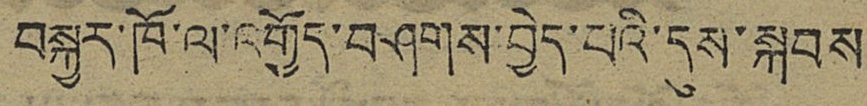བསྐྱར་ཁོ་ལ་འགྱོད་བཤགས་བྱེད་པའི་དུས་སྐབས་
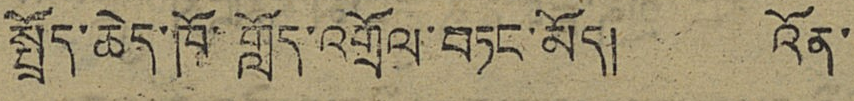སྤྲོད་ཆེད་ཁོ་གློད་འགྲོལ་བཏང་མོད། འོན་
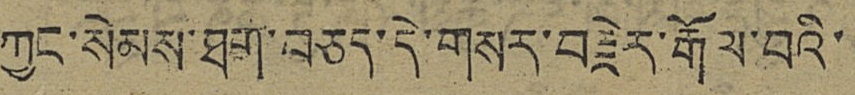ཀྱང་སེམས་ཐག་བཅད་དེ་གསར་བརྗེར་རྒོལ་བའི་
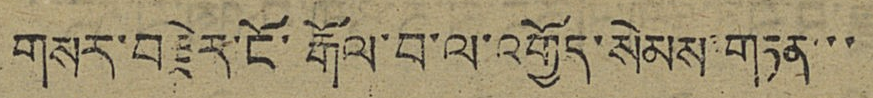གསར་བརྗེར་ངོ་རྒོལ་བ་ལ་འགྱོད་སེམས་གཏན་་་
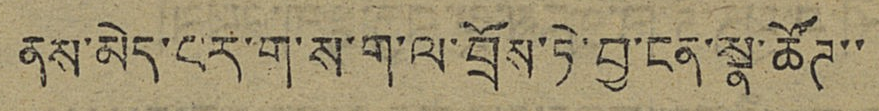ནས་མེད་པར་ག་ས་ག་ལ་བྲོས་ཏེ་བྱ་ངན་སྣ་ཚོཊ་་
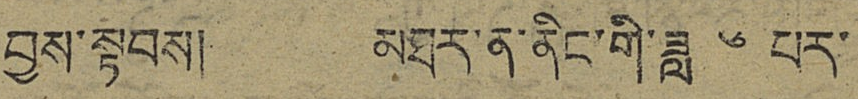བྱས་སྟབས། མཐར་ན་ནིང་གི་ཟླ ༦ པར་
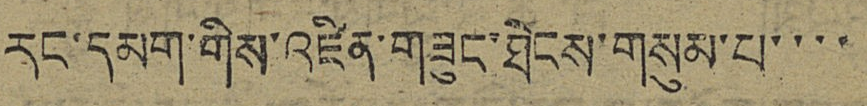རང་དམག་གིས་འཛིན་གཟུང་ཐེངས་གསུམ་པ་་་་
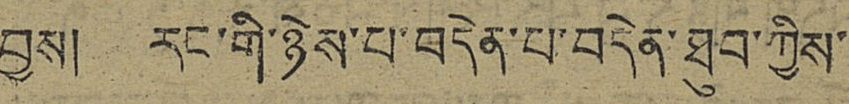བྱས། རང་གི་ཉེས་པ་བདེན་པ་བདེན་ཐུབ་ཀྱིས་
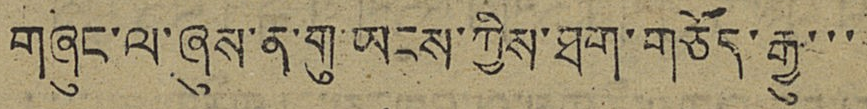གཞུང་ལ་ཞུས་ན་གུ་ཡངས་ཀྱིས་ཐག་གཅོད་རྒྱུ་་་
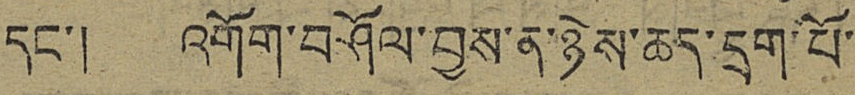དང་། འགོག་བཤོལ་བྱས་ན་ཉེས་ཆད་དྲག་པོ་
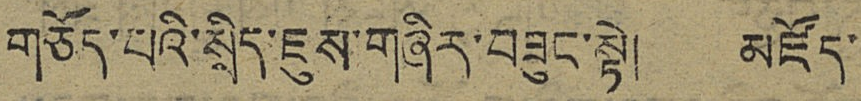གཅོད་པའི་སྲིད་ཇུས་གཞིར་བཟུང་སྟེ། མཛོད་
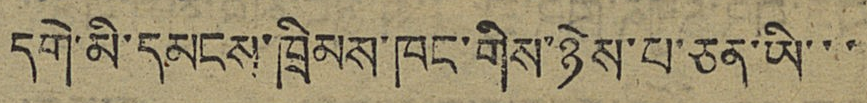དགེ་མི་དམངས་ཁྲིམས་ཁང་གིས་ཉེས་པ་ཅན་ཡི་་་
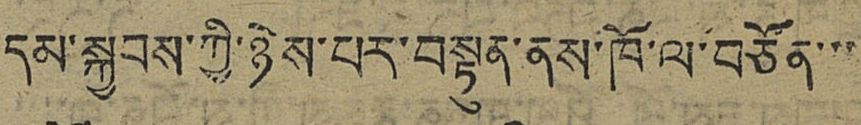དམ་སྐྱབས་ཀྱི་ཉེས་པར་བསྟུན་ནས་ཁོ་ལ་བཙོན་་་
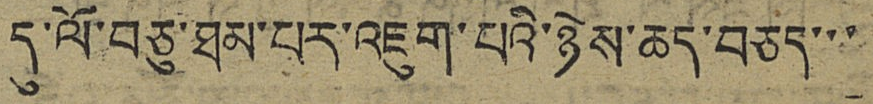དུ་ལོ་བཅུ་ཐམ་པར་འཇུག་པའི་ཉེས་ཆད་བཅད་་་
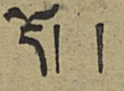དོ། །
